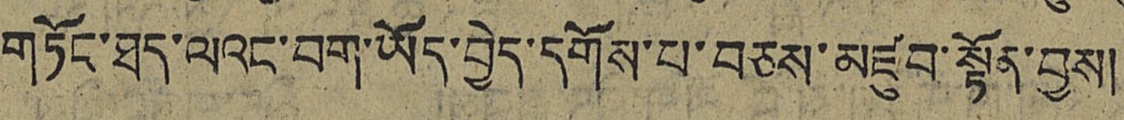གཏོང་ཐད་ལའང་བག་ཡོད་བྱེད་དགོས་པ་བཅས་མཛུབ་སྟོན་བྱས།
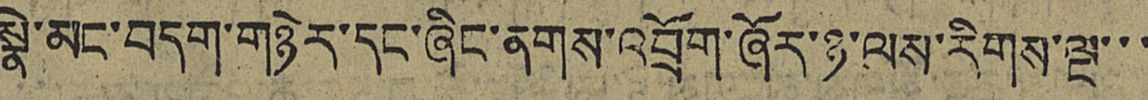སྣེ་མང་བདག་གཉེར་དང་ཞིང་ནགས་འབྲོག་ཞོར་ཉ་ལས་རིགས་ལྔ་་་
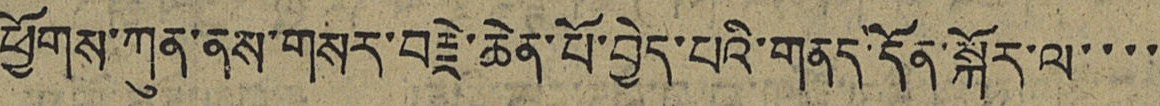ཕྱོགས་ཀུན་ནས་གསར་བརྗེ་ཆེན་པོ་བྱེད་པའི་གནད་དོན་སྐོར་ལ་་་་
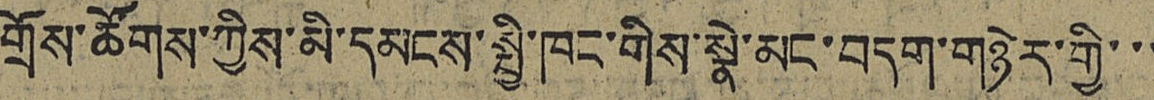གྲོས་ཚོགས་ཀྱིས་མི་དམངས་སྤྱི་ཁང་གིས་སྣེ་མང་བདག་གཉེར་གྱི་་་
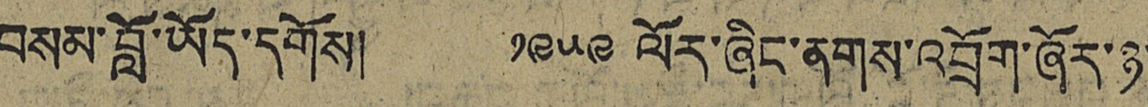བསམ་བློ་ཡོད་དགོས། ༡༩༥༩ ལོར་ཞིང་ནགས་འབྲོག་ཞོར་ཉ་
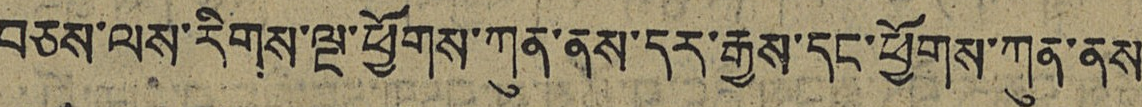བཅས་ལས་རིགས་ལྔ་ཕྱོགས་ཀུན་ནས་དར་རྒྱས་དང་ཕྱོགས་ཀུན་ནས་
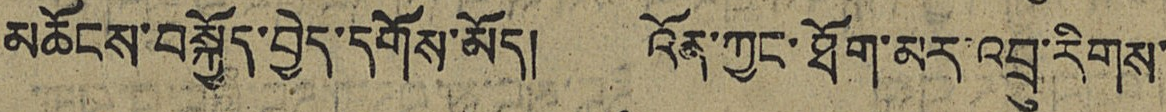མཆོངས་བསྐྱོད་བྱེད་དགོས་མོད། འོན་ཀྱང་ཐོག་མར་འབྲུ་རིགས་
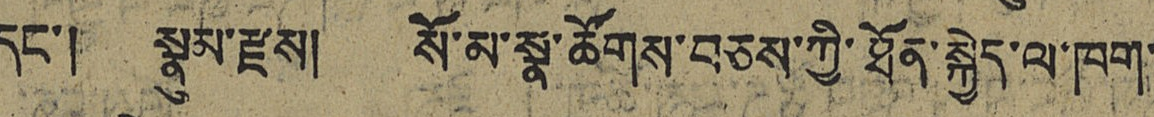དང་། སྣུམ་རྫས། སོ་མ་སྣ་ཚོགས་བཅས་ཀྱི་ཐོན་སྐྱེད་ལ་ཁག་
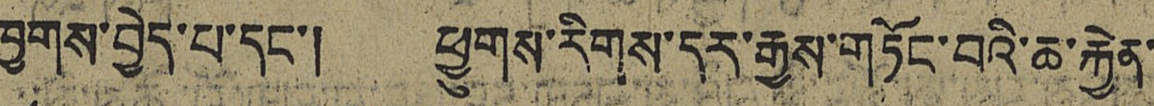ཁྱགས་བྱེད་པ་དང་། ཕྱུགས་རིགས་དར་རྒྱས་གཏོང་བའི་ཆ་རྐྱེན་
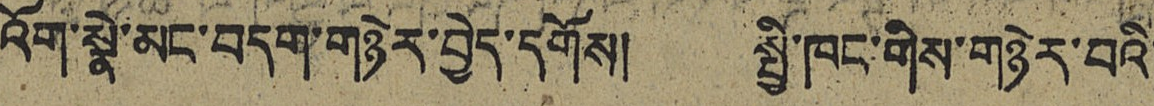འོག་སྣེ་མང་བདག་གཉེར་བྱེད་དགོས། སྤྱི་ཁང་གིས་གཉེར་བའི་
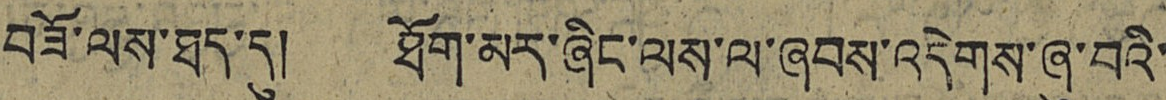བཟོ་ལས་ཐད་དུ། ཐོག་མར་ཞིང་ལས་ལ་ཞབས་འདེགས་ཞུ་བའི་
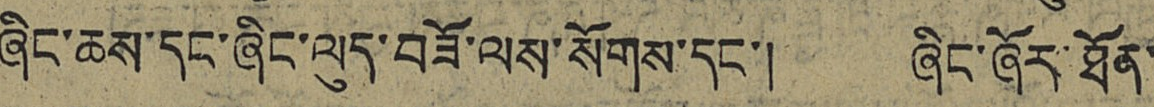ཞིང་ཆས་དང་ཞིང་ལུད་བཟོ་ལས་སོགས་དང་། ཞིང་ཞོར་ཐོན་
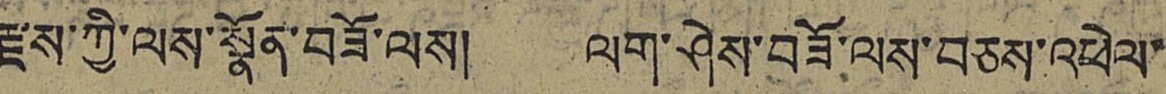རྫས་ཀྱི་ལས་སྣོན་བཟོ་ལས། ལག་ཤེས་བཟོ་ལས་བཅས་འཕེལ་
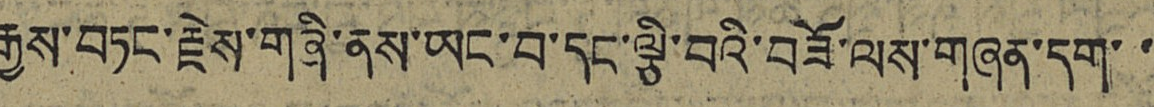རྒྱས་བཏང་རྗེས་གཞི་ནས་ཡང་བ་དང་ལྕི་བའི་བཟོ་ལས་གཞན་དག་་
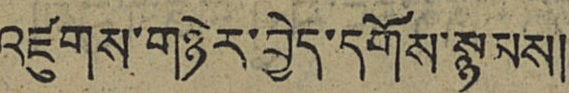འཛུགས་གཉེར་བྱེད་དགོས་སྙམས།
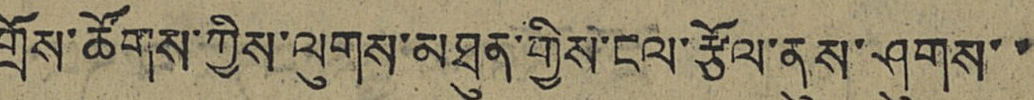གྲོས་ཚོགས་ཀྱིས་ལུགས་མཐུན་གྱིས་ངལ་རྩོལ་ནུས་ཤུགས་་
